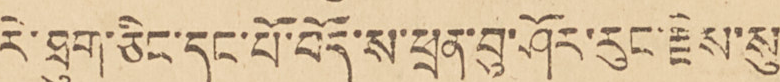རེ་ཐུག་ཅིང་དང་པོ་བོད་ས་ཕྲན་བུ་ཤོར་རུང་རྗེས་སུ་
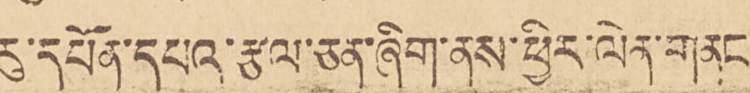རུ་དཔོན་དཔའ་རྩལ་ཅན་ཞིག་ནས་ཕྱིར་ལེན་གནང་
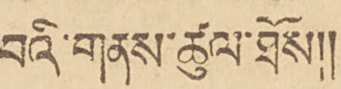བའི་གནས་ཚུལ་ཐོས།།
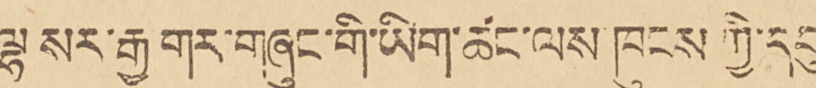ལྷ སར་རྒྱ གར་གཞུང་གི་ཡིག་ཚང་ལས་ཁུངས ཀྱི་དབུ
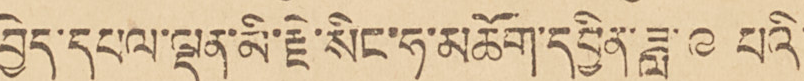བྱེད་དཔལ་ལྡན་མི་རྗེ་སིང་ཧ་མཆོག་དབྱིན་ཟླ་ ༩ པའི་
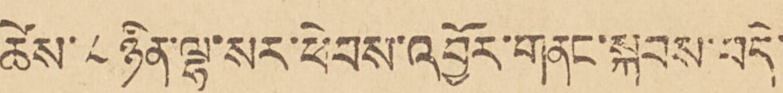ཚེས་ ༨ ཉིན་ལྷ་སར་ཕེབས་འབྱོར་གནང་སྐབས་བདེ་
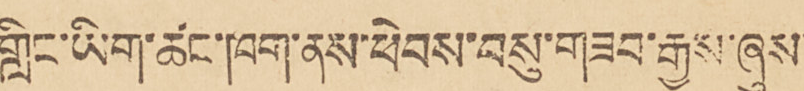གླིང་ཡིག་ཚང་ཁག་ནས་ཕེབས་བསུ་གཟབ་རྒྱས་ཞུས་
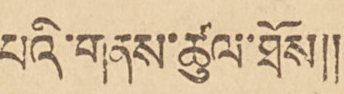པའི་གནས་ཚུལ་ཐོས།།
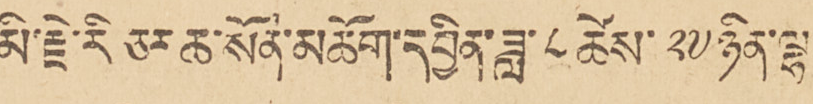མི་རྗེ་རི ཅར ཆ་སོན་མཆོག་དབྱིན་ཟླ་ ༨ ཚེས་ ༢༧ ཉིན་ལྷ
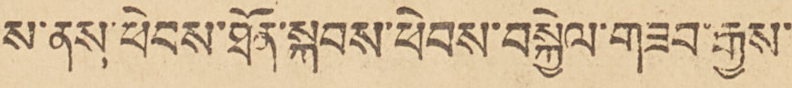ས་ནས་ཕེབས་ཐོན་སྐབས་ཕེབས་བསྐྱེལ་གཟབ་རྒྱས་
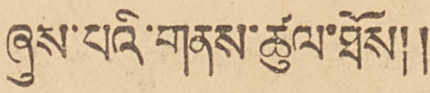ཞུས་པའི་གནས་ཚུལ་ཐོས།།
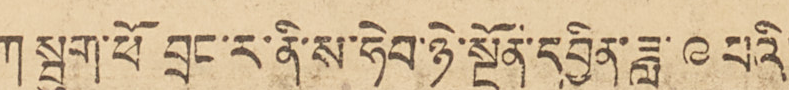ཀ སྦུག་ཕོ བྲང་ར་ནི་ས་ཧེབ་ཉེ་སྔོན་དབྱིན་ཟླ་ ༩ པའི་
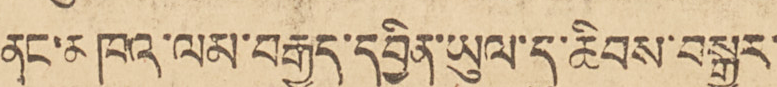ནང་མཁའ་ལམ་བརྒྱུད་དབྱིན་ཡུལ་དུ་ཆིབས་བསྒྱུར་
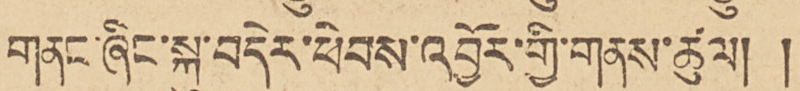གནང་ཞིང་སྐུ་བདེར་ཕེབས་འབྱོར་གྱི་གནས་ཚུལ། །
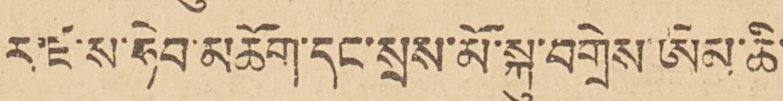ར་ཛ་ས་ཧེབ་མཆོག་དང་སྲས་མོ་སྐུ་བགྲེས་ཨེམ་ཆི་
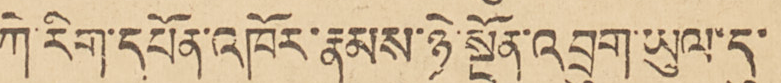ཀེ་རིག་དཔོན་འཁོར་རྣམས་ཉེ་སྔོན་འབྲུག་ཡུལ་དུ་
